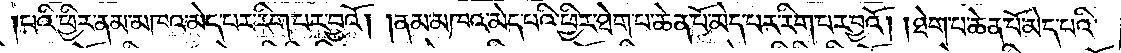པའི་ཕྱིར་ནམ་མཁའ་མེད་པར་རིག་པར་བྱའོ། །ནམ་མཁའ་མེད་པའི་ཕྱིར་ཐེག་པ་ཆེན་པོ་མེད་པར་རིག་པར་བྱའོ། །ཐེག་པ་ཆེན་པོ་མེད་པའི་
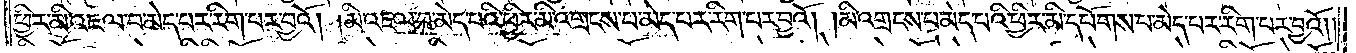ཕྱིར་མི་འཇལ་བ་མེད་པར་རིག་པར་བྱའོ། །མི་འཇལ་བ་མེད་པའི་ཕྱིར་མི་འགྲངས་པ་མེད་པར་རིག་པར་བྱའོ། །མི་འགྲངས་པ་མེད་པའི་ཕྱིར་མི་དཔོགས་པ་མེད་པར་རིག་པར་བྱའོ། །
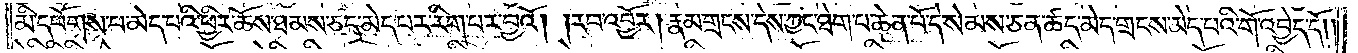མི་དཔོགས་པ་མེད་པའི་ཕྱིར་ཆོས་ཐམས་ཅད་མེད་པར་རིག་པར་བྱའོ། །རབ་འབྱོར། རྣམ་གྲངས་དེས་ཀྱང་ཐེག་པ་ཆེན་པོ་དེས་སེམས་ཅན་ཚད་མེད་གྲངས་མེད་པའི་གོ་འབྱེད་དོ། །
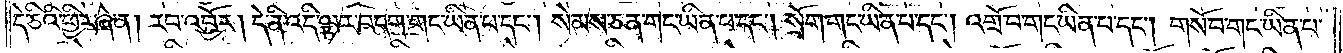དེ་ཅིའི་ཕྱིར་ཞེ་ན། རབ་འབྱོར། དེ་ནི་འདི་ལྟར་བདག་གང་ཡིན་པ་དང༌། སེམས་ཅན་གང་ཡིན་པ་དང༌། སྲོག་གང་ཡིན་པ་དང༌། འགྲོ་བ་གང་ཡིན་པ་དང༌། གསོ་བ་གང་ཡིན་པ་
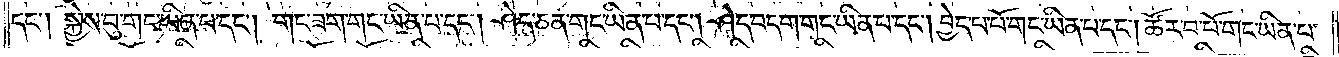དང༌། སྐྱེས་བུ་གང་ཡིན་པ་དང༌། གང་ཟག་གང་ཡིན་པ་དང༌། ཤེད་ཅན་གང་ཡིན་པ་དང༌། ཤེད་བདག་གང་ཡིན་པ་དང༌། བྱེད་པ་པོ་གང་ཡིན་པ་དང༌། ཚོར་བ་པོ་གང་ཡིན་པ་
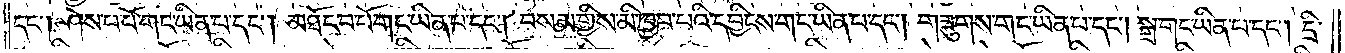དང༌། ཤེས་པ་པོ་གང་ཡིན་པ་དང༌། མཐོང་བ་པོ་གང་ཡིན་པ་དང༌། བསམ་གྱིས་མི་ཁྱབ་པའི་དབྱིངས་གང་ཡིན་པ་དང༌། གཟུགས་གང་ཡིན་པ་དང༌། སྒྲ་གང་ཡིན་པ་དང༌། དྲི་
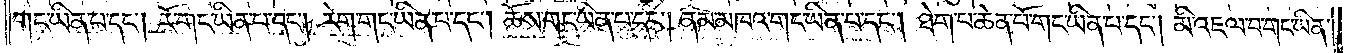གང་ཡིན་པ་དང༌། རོ་གང་ཡིན་པ་དང༌། རེག་གང་ཡིན་པ་དང༌། ཆོས་གང་ཡིན་པ་དང༌། ནམ་མཁའ་གང་ཡིན་པ་དང༌། ཐེག་པ་ཆེན་པོ་གང་ཡིན་པ་དང༌། མི་འཇལ་བ་གང་ཡིན་
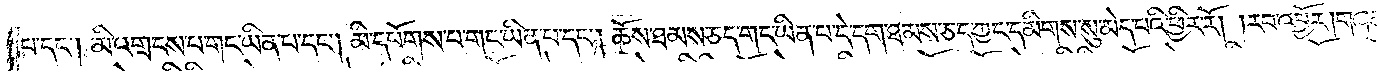པ་དང༌། མི་འགྲངས་པ་གང་ཡིན་པ་དང༌། མི་དཔོགས་པ་གང་ཡིན་པ་དང༌། ཆོས་ཐམས་ཅད་གང་ཡིན་པ་དེ་དག་ཐམས་ཅད་ཀྱང་དམིགས་སུ་མེད་པའི་ཕྱིར་རོ། །རབ་འབྱོར། གཞན་
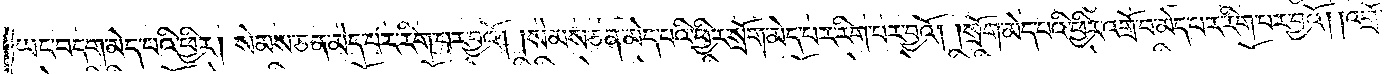ཡང་བདག་མེད་པའི་ཕྱིར། སེམས་ཅན་མེད་པར་རིག་པར་བྱའོ། །སེམས་ཅན་མེད་པའི་ཕྱིར་སྲོག་མེད་པར་རིག་པར་བྱའོ། །སྲོག་མེད་པའི་ཕྱིར་འགྲོ་བ་མེད་པར་རིག་པར་བྱའོ། །འགྲོ་
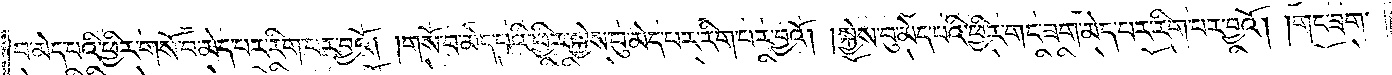བ་མེད་པའི་ཕྱིར་གསོ་བ་མེད་པར་རིག་པར་བྱའོ། །གསོ་བ་མེད་པའི་ཕྱིར་སྐྱེས་བུ་མེད་པར་རིག་པར་བྱའོ། །སྐྱེས་བུ་མེད་པའི་ཕྱིར་གང་ཟག་མེད་པར་རིག་པར་བྱའོ། །གང་ཟག་
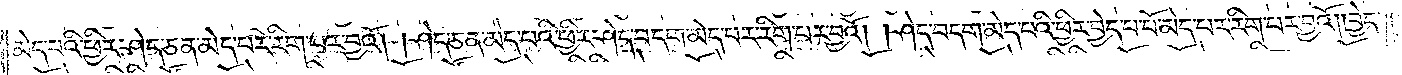མེད་པའི་ཕྱིར་ཤེད་ཅན་མེད་པར་རིག་པར་བྱའོ། །ཤེད་ཅན་མེད་པའི་ཕྱིར་ཤེད་བདག་མེད་པར་རིག་པར་བྱའོ། །ཤེད་བདག་མེད་པའི་ཕྱིར་བྱེད་པ་པོ་མེད་པར་རིག་པར་བྱའོ། །བྱེད་
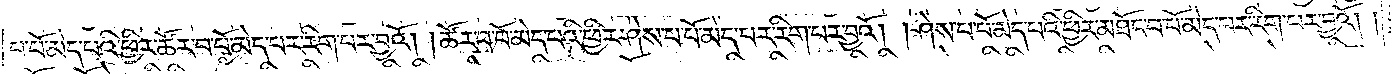པ་པོ་མེད་པའི་ཕྱིར་ཚོར་བ་པོ་མེད་པར་རིག་པར་བྱའོ། །ཚོར་བ་པོ་མེད་པའི་ཕྱིར་ཤེས་པ་པོ་མེད་པར་རིག་པར་བྱའོ། །ཤེས་པ་པོ་མེད་པའི་ཕྱིར་མཐོང་བ་པོ་མེད་པར་རིག་པར་བྱའོ། །
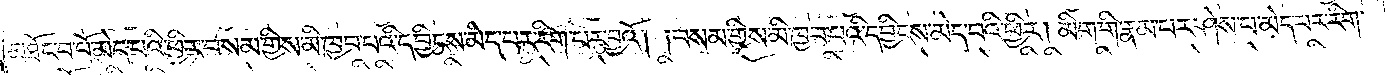མཐོང་བ་པོ་མེད་པའི་ཕྱིར་བསམ་གྱིས་མི་ཁྱབ་པའི་དབྱིངས་མེད་པར་རིག་པར་བྱའོ། །བསམ་གྱིས་མི་ཁྱབ་པའི་དབྱིངས་མེད་པའི་ཕྱིར། མིག་གི་རྣམ་པར་ཤེས་པ་མེད་པར་རིག་
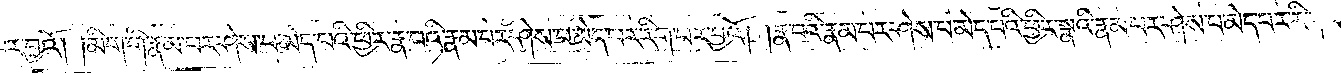པར་བྱའོ། །མིག་གི་རྣམ་པར་ཤེས་པ་མེད་པའི་ཕྱིར་རྣ་བའི་རྣམ་པར་ཤེས་པ་མེད་པར་རིག་པར་བྱའོ། །རྣ་བའི་རྣམ་པར་ཤེས་པ་མེད་པའི་ཕྱིར་སྣའི་རྣམ་པར་ཤེས་པ་མེད་པར་རིག་པར་
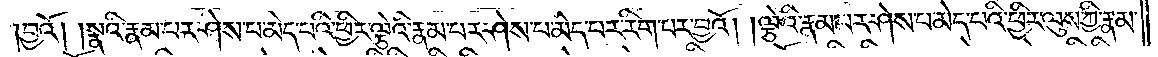བྱའོ། །སྣའི་རྣམ་པར་ཤེས་པ་མེད་པའི་ཕྱིར་ལྕེའི་རྣམ་པར་ཤེས་པ་མེད་པར་རིག་པར་བྱའོ། །ལྕེའི་རྣམ་པར་ཤེས་པ་མེད་པའི་ཕྱིར་ལུས་ཀྱི་རྣམ་
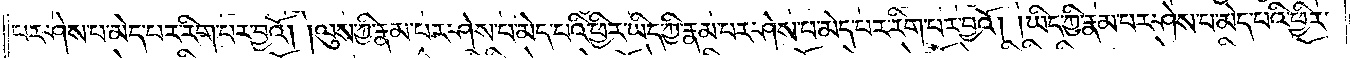པར་ཤེས་པ་མེད་པར་རིག་པར་བྱའོ། །ལུས་ཀྱི་རྣམ་པར་ཤེས་པ་མེད་པའི་ཕྱིར་ཡིད་ཀྱི་རྣམ་པར་ཤེས་པ་མེད་པར་རིག་པར་བྱའོ། །ཡིད་ཀྱི་རྣམ་པར་ཤེས་པ་མེད་པའི་ཕྱིར་
